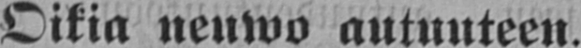Oikia neuwo autuuteen.
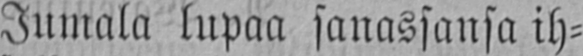Jumala lupaa sanassansa ih-
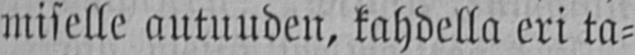miselle autuuden, kahdella eri ta-
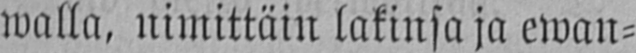walla, nimittäin lokinsa ja ewan-
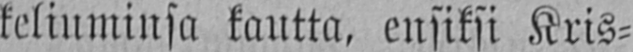keliuminsa kautta, ensiksi Kris-
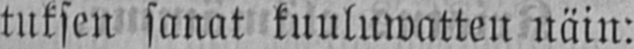tuksen sanat kuuluwatten näin:
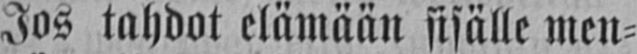Jos tahdot elämään sisälle men-
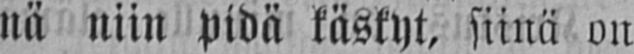nä niin pidä käskyt, siinä on
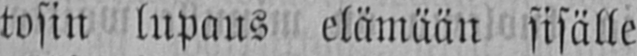tosin lupaus elämään sisälle
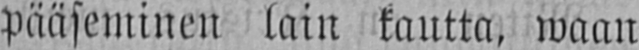Pääseminen lain kautta, waan
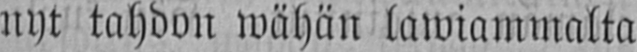nyt tahdon wähän lawiammalta
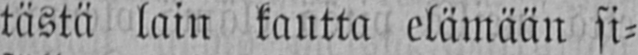tästä lain kautta elämään si-
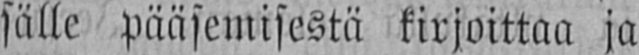sälle pääsemisestä kirjoittaa ja
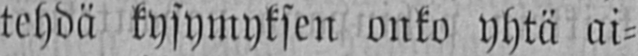tehdä kysymyksen onko yhtä ai-
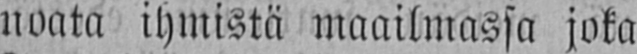noata ihmistä maailmassa joka
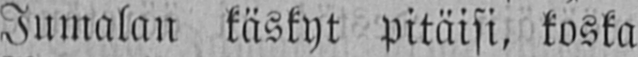Jumalan käskyt pitäisi, koska
